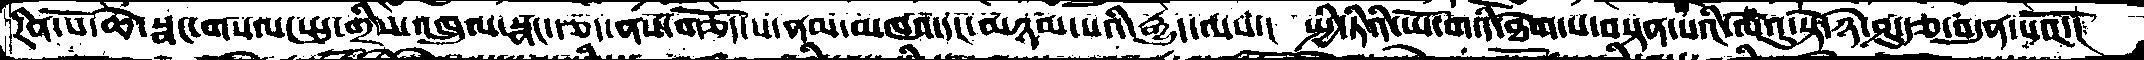རིན་པོ་ཆེ་སྣང་གསལ་སྤུ་གྲིས་འཁྲུལ་སྣང་རྩད་ནས་གཅོད་པ་ནམ་མཁའ་དང་མཉམ་པའི་རྒྱུད་ལས་།  སྤྱི་ཏིའི་ཡོ་གའི་ཐེག་པ་བསྟན་པའི་ལེའུ་སྟེ་ཉེ་ཤུ་རྩ་བདུན་པའོ་།
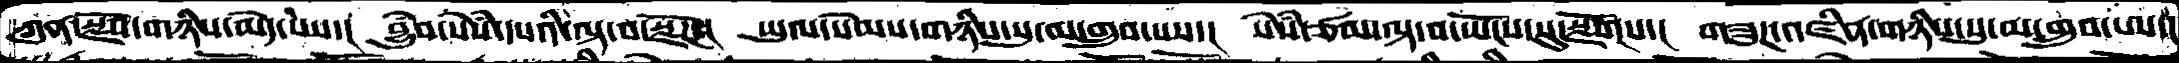ཀུན་སྫོབ་གཉིས་མེད་པས་།  བྱུཾབ་སེཾས་དཔའི་ལྟ་བ་སྫོཌ་།  ཡུལ་སེམས་གཉིས་སུ་མ་གྲུབ་པས་།  སེཾས་ཙམ་ལྟ་བ་ཡོངས་སུ་སྫོགས་།  གཟུཌ་འཛིན་གཉིས་སུ་མ་གྲུབ་པས་།
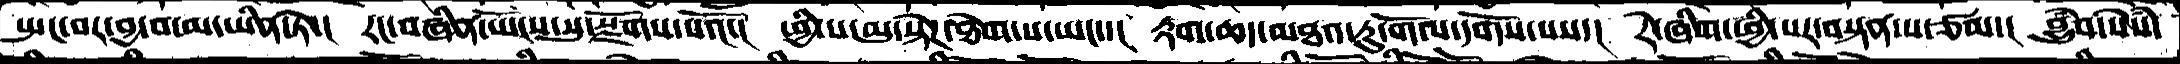སྤང་བར་བྱ་བ་མ་ཡིན་ཏེ་།  རང་བཞིན་ཡོངས་སུ་སྫོགས་པའོ་།  ཕྱི་ས་མུ་སྟེཌ་ཐེག་པ་ཡང་་།  རྟག་ཆད་མཐའ་རུ་གོལ་དགོས་པས་།  རེ་ཞིག་ཕྱི་པར་བསྟན་པ་ཙམ་།  བྱུཾབ་སེཾས་
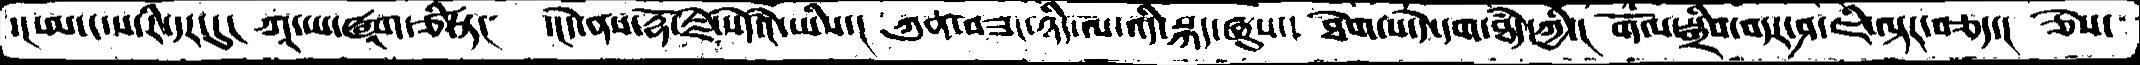་ངཨ་ར་ས་རི་དར་དུ།  ཀཱ་ཡ་ཝཱག་ཙི་ཏ།   ་།དེ་ནས་རྡོ་རྗེ་སེདཾའ་ཡིས་།  ཀུན་བཟང་ཉིད་ལ་འདི་སྐད་ཞུས་།  ཐེག་པ་དེ་དག་ཐཾད་ཀྱི་།  གོལ་སྒྲིབ་བདར་ཤ་ཇི་ལྟར་བཅད་།  ཅེས་
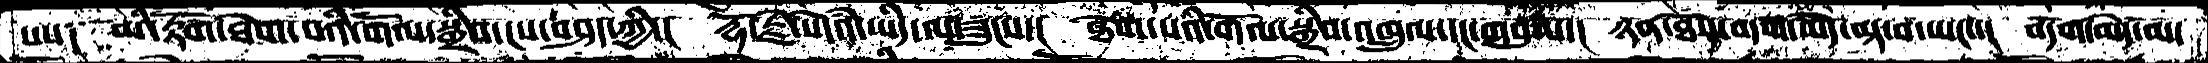པས།   མི་རྟོག་ཐེག་པའི་གོལ་སྒྲིབ་ངས་བཤད་ཀྱི་།  རྡོ་རྗེ་ེསེདཾའ་ཡིད་ལ་ཟུངས་།  ཐེག་པའི་གོལ་སྒྲིབ་འཁྲུལ་དང་གསུམ་།  ཉན་ཐོས་བདག་མེད་ལྟ་བ་ཡང་་།  བདག་མེད་མ་
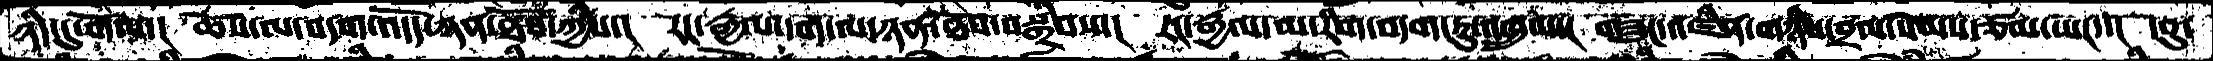ཉིད་དུ་གོལ་།  ཆོས་ལ་བདག་འདོད་ཉན་ཐོས་ཀྱིས་།  རང་རྒྱལ་དག་ལ་ཉན་ཐོས་བསྒྲིབས་།  རང་རྒྱལ་མ་རིག་བདག་ཏུ་འཁྲུལ་།  གཟུང་འཛིན་གཉིས་བྲལ་སེམས་ཙམ་ཡང་་།  དབུ་
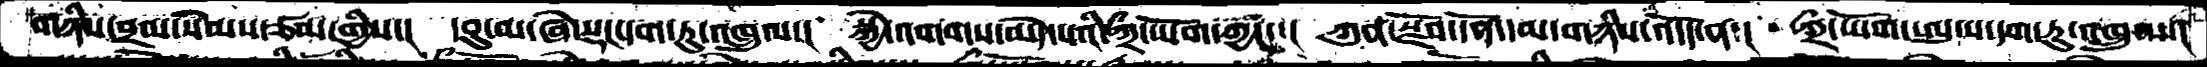གཉིས་བྲལ་སེམས་ཙམ་གྱིས་།  དབུ་མ་ཞེ་སྡང་དག་ཏུ་འཁྲུལ་།  སྐྱེ་འགགས་མེད་པའི་ཀྲྀ་ཡོག་ཀྱང་་།  ཀུན་སྫོབ་དོན་དམ་གཉིས་འདོད་ན་།  ཀྲི་ཡོག་ཨུ་པ་དག་ཏུ་འཁྲུལ་།
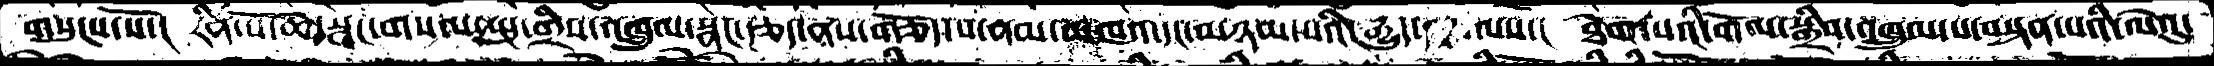གསུངས་སོ་།  རིན་པོ་ཆེ་སྣང་གསལ་སྤུ་གྲིས་འཁྲུལ་སྣང་རྩད་ནས་གཅོད་པ་ནམ་མཁའ་དང་མཉམ་པའི་རྒྱུད་   ལས་།  ཐེག་པའི་གོལ་སྒྲིབ་འཁྲུལ་པ་བསྟན་པའི་ལེའུ་
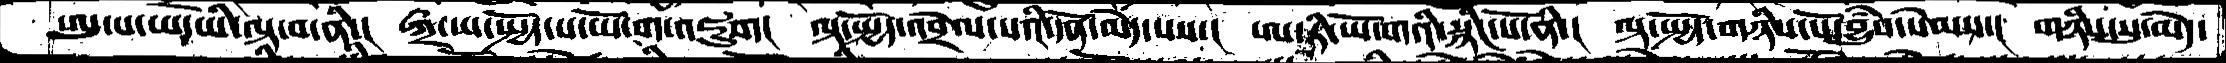ཨུ་པ་ཡ་ཡི་ལྟ་བ་ནི་།  ཀྲྀ་ཡ་སྤྱོད་པ་ཡོ་ག་འཇུག།  ལྟ་སྤྱོད་འབྲེལ་པའི་དོན་མེད་པས་།  ཨ་ཏི་ཡོ་གའི་སྙིང་པོ་ནི་།  ལྟ་སྤྱོད་གཉིས་པོ་བྱུཾབ་སེམས་།  གཉིས་སུ་མེད་
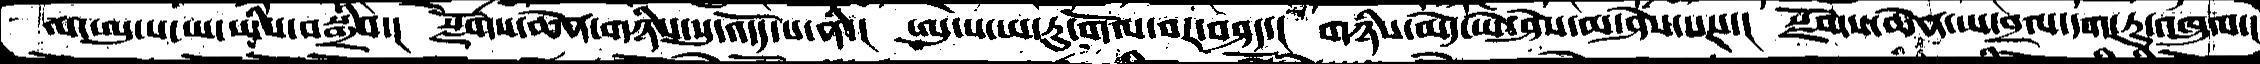ལ་ཨུ་པ་ཡ་ཡིས་བསྒྲིབ་།  སྫོགས་ཆེན་གཉིས་སུ་འདོད་པ་ནི་།  ཨུ་པ་ཡ་ཏུ་གོལ་བར་བཤད་།  གཉིས་མེད་ཡེ་ཤེས་མ་ཤེས་པས་།  སྫོགས་ཆེན་ཡ་བྲལ་དག་ཏུ་འཁྲུལ་།
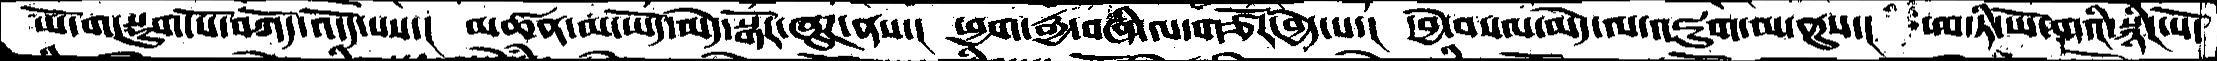ཡོ་ག་སྡུག་པོ་བཀོད་འདོད་པས་།   མཚན་མ་ཡོད་མེད་སྒོར་ཞུཌ་ནས་།  ཕྱག་རྒྱ་བཞི་ལ་གཙོར་བྱེད་པ་།  དབྱེ་བསལ་མེད་ལ་འཇུག་མ་ནུས་།  ཨ་ཏི་ཡོ་གའི་སྙིང་པོ་
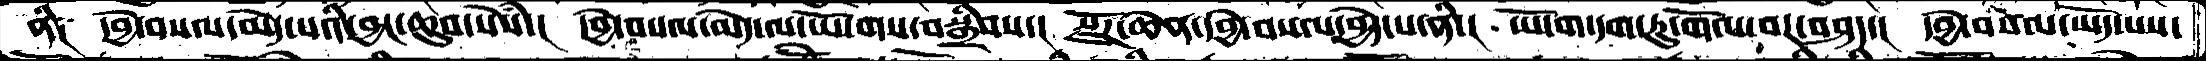ནི༑ དབྱེ་བསལ་མེད་པའི་བྱང་ཆུབ་སེཾས་།   དབྱེ་བསལ་མེད་ལ་ཡོ་གས་བསྒྲིབས་།  སྫོཌ་ཆེན་དབྱེ་བསལ་བྱེད་པ་ནི་།  ཡོ་ག་དག་ཏུ་གོལ་བར་བཤད་།  དབྱེ་བསལ་ཡོད་པས་
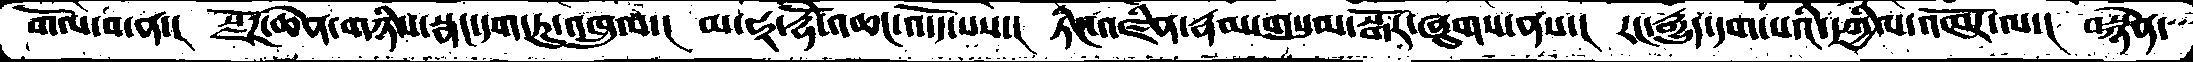གོལ་བ་ན་།  སྫོཌ་ཆེན་གཉིས་སྣང་དག་ཏུ་འཁྲུལ་།  མ་ཧཱ་རྡོེ་འཆང་འདོད་པས་།  ཏིང་འཛིན་རྣམ་གསུམ་སྒོར་ཞུགས་ནས་།  རང་རྒྱུད་དག་པའི་དཀྱིལ་འཁོར་ལ་།  བསྙེན་
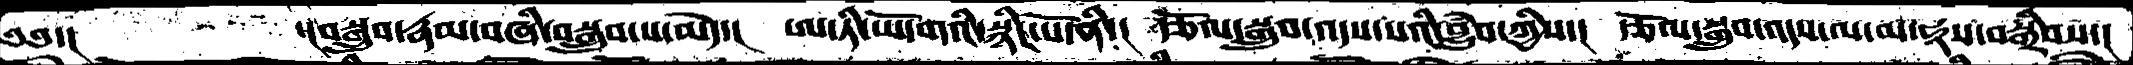༄༅་།          ་།བསྒྲུབ་རྣམ་བཞི་བསྒྲུབ་པ་མེད་།  ཨ་ཏི་ཡོ་གའི་སྙིང་པོ་ནི་།  རྩོལ་སྒྲུབ་འདས་པའི་བྱུཾབ་ཀྱིས་།  རྩོལ་སྒྲུབ་འདས་ལ་མ་ཧཱས་བསྒྲིབས་།
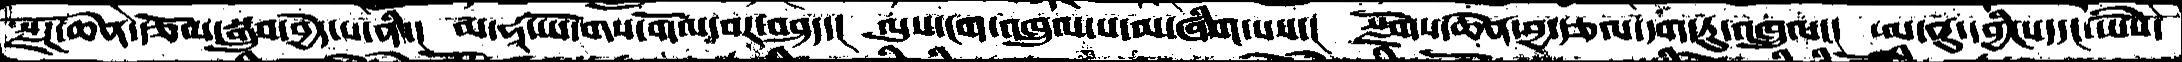སྫོཌ་ཆེན་རྩོལ་སྒྲུབ་བྱེད་པ་ནི་།  མ་ཧཱ་ཡོ་གས་གོལ་བར་བཤད་།  ལུས་ངག་འཁྲུལ་པ་མ་ཞིག་པས་།  སྫོགས་ཆེན་བྱ་རྩལ་དག་ཏུ་འཁྲུལ་།  ཨ་ནུ་དབྱིངས་དང་ཡཻས་
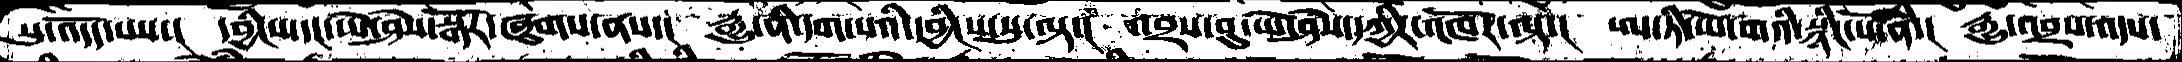སུ་འདོད་པས་།  དབྱིངས་དང་ཡེ་ཤེས་སྒོར་ཞུགས་ནས་།  རྒྱུ་ནི་དག་པའི་དབྱིངས་སུ་ལྟ་།  འབྲས་བུ་ཡེ་ཤེས་དཀྱིལ་འཁོར་ལྟ་།  ཨ་ཏི་ཡོ་གའི་སྙིང་པོ་ནི་།  རྒྱུ་འབྲས་འདས་
